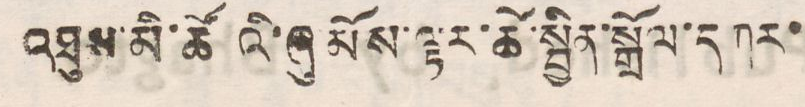འཐུས་མི་ཚོའི་ཞུ མོས་ལྟར་ཚེ་སྦྱིན་སྒྲོལ་དཀར་
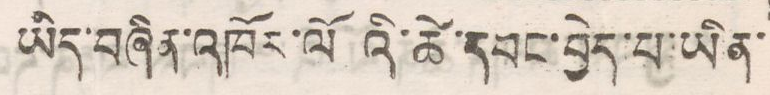ཡིད་བཞིན་འཁོར་ལོའི་ཚེ་དབང་བྱེད་པ་ཡིན་
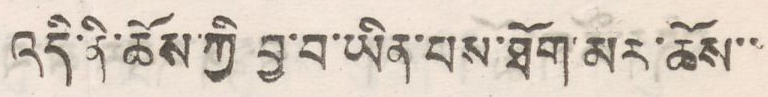འདི་ནི་ཆོས་ཀྱི བྱ་བ་ཡིན་པས་ཐོག་མར་ཆོས་་
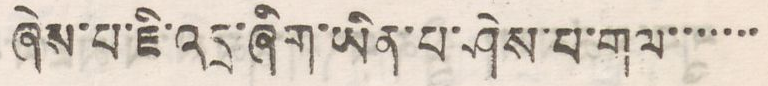ཞེས་པ་ཇི་འདྲ་ཞིག་ཡིན་པ་ཤེས་པ་གལ་་་་་་་
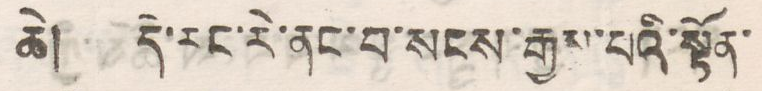ཆེ། དེ་རང་རེ་ནང་བ་སངས་རྒྱས་པའི་སྟོན་
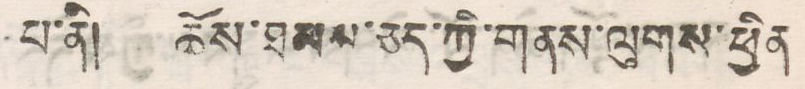པ་ནི། ཆོས་ཐམས་ཅད་ཀྱི་གནས་ལུགས་ཕྱིན
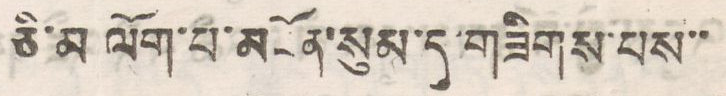ཅི་མ ལོག་པ་མངོན་སུམ་དུ་གཟིགས་པས་་
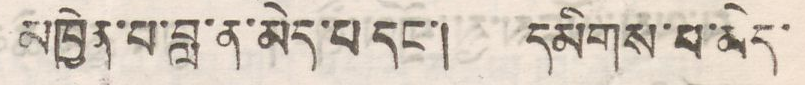མཁྱེན་པ་བླ་ན་མེད་པ དང་། དམིགས་པ་མེད་
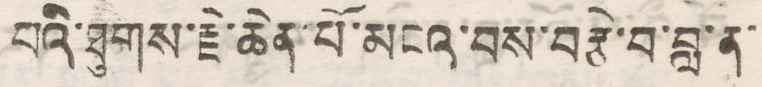པའི་ཐུགས་རྗེ་ཆེན་པོ་མངའ་བས་བརྩེ་བ་བླ་ན་
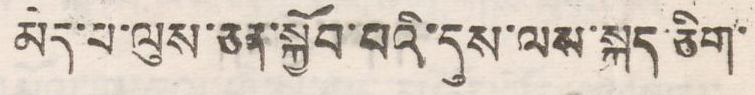མེད་པ་ལུས་ཅན་སྐྱོབ་པའི་དུས་ལས་སྐད་ཅིག་
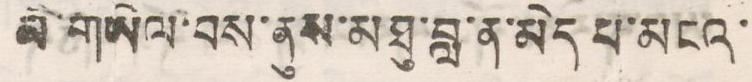མི་གཡེལ་བས་ནས་མཐུ་བླ་ན་མེད པ་མངའ་
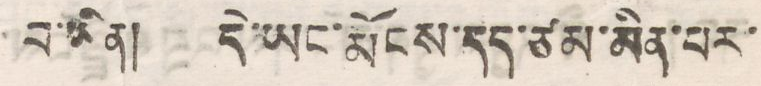བ་ཡིན། དེ་ཡང་རྨོངས་དད་ཙམ་མིན་པར་
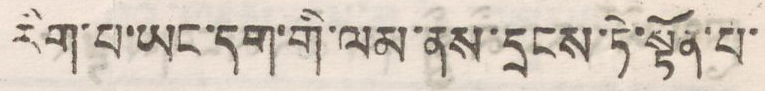རིག་པ་ཡང་དག་གི་ལམ་ནས་དྲངས་ཏེ་སྟོན་པ་
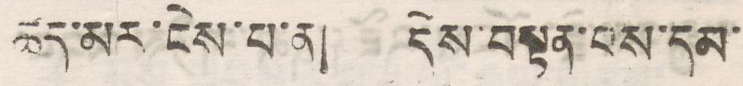ཚད་མར་ངེས་པ་ན། དེས་བསྟན་པས་དམ་
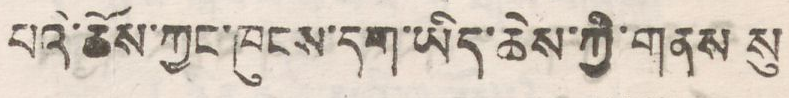པའི་ཆོས་ཀྱང་ཁུངས་དག་ཡིད་ཆེས་ཀྱི་གནས སུ
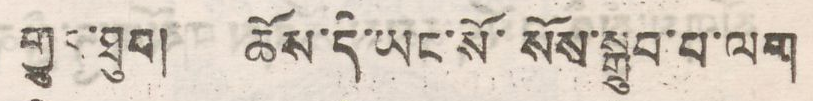གྱུར་ཐུབ། ཆོས་དེ་ཡང་སོ་སོས་སྒྲུབ་པ་ལག
